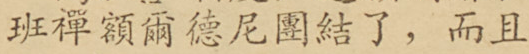班禪額爾德尼團結了，而且
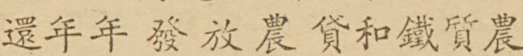還年年發放農貸和鐵質農
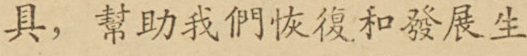具，幫助我們恢復和發展生
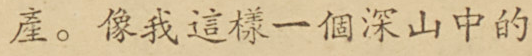產。像我這樣一個深山中的
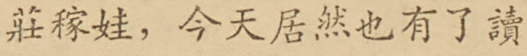莊稼娃，今天居然也有了讀
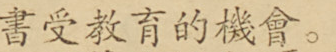書受教育的機會。
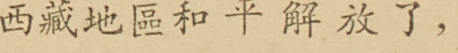西藏地區和平解放了，
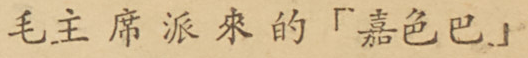毛主席派來的「嘉色巴」
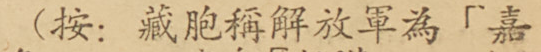（按：藏胞稱解放軍為「嘉
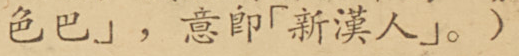色巴」，意卽「新漢人」。）
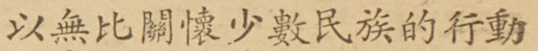以無比關懷少數民族的行動
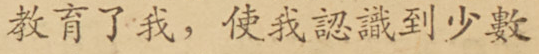教育了我，使我認識到少數
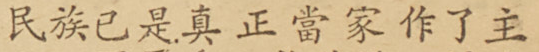民族已是真正當家作了主
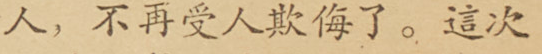人，不再受人欺侮了。這次
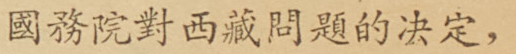國務院對西藏問題的決定，
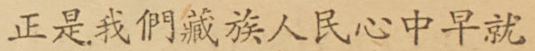正是我們藏族人民心中早就
